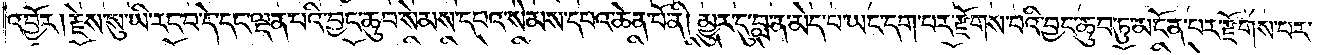འབྱོར། རྗེས་སུ་ཡི་རང་བ་དེ་དང་ལྡན་པའི་བྱང་ཆུབ་སེམས་དཔའ་སེམས་དཔའ་ཆེན་པོ་ནི། མྱུར་དུ་བླ་ན་མེད་པ་ཡང་དག་པར་རྫོགས་པའི་བྱང་ཆུབ་ཏུ་མངོན་པར་རྫོགས་པར་
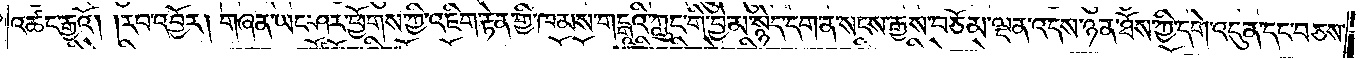འཚང་རྒྱའོ། །རབ་འབྱོར། གཞན་ཡང་ཤར་ཕྱོགས་ཀྱི་འཇིག་རྟེན་གྱི་ཁམས་གངྒའི་ཀླུང་གི་བྱེ་མ་སྙེད་དག་ན་སངས་རྒྱས་བཅོམ་ལྡན་འདས་ཉན་ཐོས་ཀྱི་དགེ་འདུན་དང་བཅས་
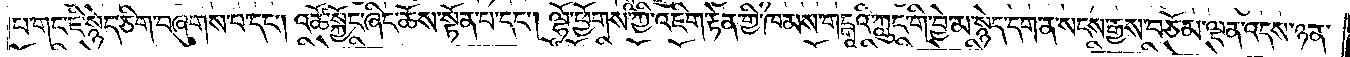པ་གང་ཇི་སྙེད་ཅིག་བཞུགས་པ་དང༌། འཚོ་སྐྱོང་ཞིང་ཆོས་སྟོན་པ་དང༌། ལྷོ་ཕྱོགས་ཀྱི་འཇིག་རྟེན་གྱི་ཁམས་གངྒའི་ཀླུང་གི་བྱེ་མ་སྙེད་དག་ན་སངས་རྒྱས་བཅོམ་ལྡན་འདས་ཉན་
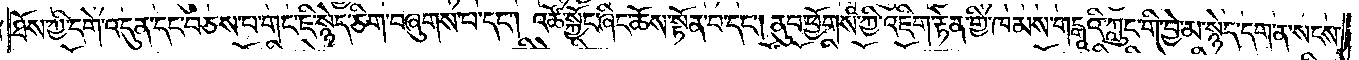ཐོས་ཀྱི་དགེ་འདུན་དང་བཅས་པ་གང་ཇི་སྙེད་ཅིག་བཞུགས་པ་དང༌། འཚོ་སྐྱོང་ཞིང་ཆོས་སྟོན་པ་དང༌། ནུབ་ཕྱོགས་ཀྱི་འཇིག་རྟེན་གྱི་ཁམས་གངྒའི་ཀླུང་གི་བྱེ་མ་སྙེད་དག་ན་སངས་
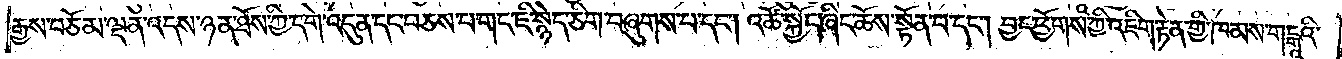རྒྱས་བཅོམ་ལྡན་འདས་ཉན་ཐོས་ཀྱི་དགེ་འདུན་དང་བཅས་པ་གང་ཇི་སྙེད་ཅིག་བཞུགས་པ་དང༌། འཚོ་སྐྱོང་ཞིང་ཆོས་སྟོན་པ་དང༌། བྱང་ཕྱོགས་ཀྱི་འཇིག་རྟེན་གྱི་ཁམས་གངྒའི་
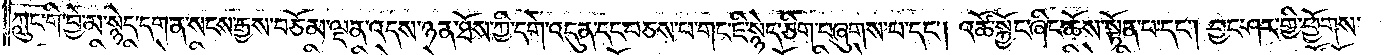ཀླུང་གི་བྱེ་མ་སྙེད་དག་ན་སངས་རྒྱས་བཅོམ་ལྡན་འདས་ཉན་ཐོས་ཀྱི་དགེ་འདུན་དང་བཅས་པ་གང་ཇི་སྙེད་ཅིག་བཞུགས་པ་དང༌། འཚོ་སྐྱོང་ཞིང་ཆོས་སྟོན་པ་དང༌། བྱང་ཤར་གྱི་ཕྱོགས་
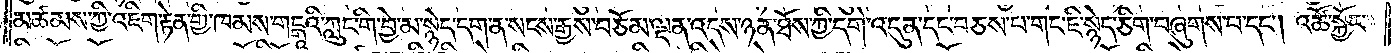མཚམས་ཀྱི་འཇིག་རྟེན་གྱི་ཁམས་གངྒའི་ཀླུང་གི་བྱེ་མ་སྙེད་དག་ན་སངས་རྒྱས་བཅོམ་ལྡན་འདས་ཉན་ཐོས་ཀྱི་དགེ་འདུན་དང་བཅས་པ་གང་ཇི་སྙེད་ཅིག་བཞུགས་པ་དང༌། འཚོ་སྐྱོང་
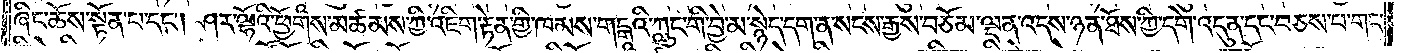ཞིང་ཆོས་སྟོན་པ་དང༌། ཤར་ལྷོའི་ཕྱོགས་མཚམས་ཀྱི་འཇིག་རྟེན་གྱི་ཁམས་གངྒའི་ཀླུང་གི་བྱེ་མ་སྙེད་དག་ན་སངས་རྒྱས་བཅོམ་ལྡན་འདས་ཉན་ཐོས་ཀྱི་དགེ་འདུན་དང་བཅས་པ་གང་
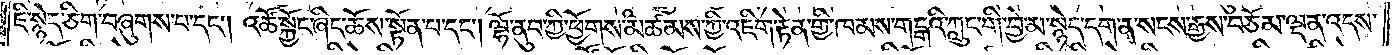ཇི་སྙེད་ཅིག་བཞུགས་པ་དང༌། འཚོ་སྐྱོང་ཞིང་ཆོས་སྟོན་པ་དང༌། ལྷོ་ནུབ་ཀྱི་ཕྱོགས་མཚམས་ཀྱི་འཇིག་རྟེན་གྱི་ཁམས་གངྒའི་ཀླུང་གི་བྱེ་མ་སྙེད་དག་ན་སངས་རྒྱས་བཅོམ་ལྡན་འདས་
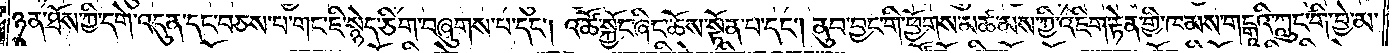ཉན་ཐོས་ཀྱི་དགེ་འདུན་དང་བཅས་པ་གང་ཇི་སྙེད་ཅིག་བཞུགས་པ་དང༌། འཚོ་སྐྱོང་ཞིང་ཆོས་སྟོན་པ་དང༌། ནུབ་བྱང་གི་ཕྱོགས་མཚམས་ཀྱི་འཇིག་རྟེན་གྱི་ཁམས་གངྒའི་ཀླུང་གི་བྱེ་མ་
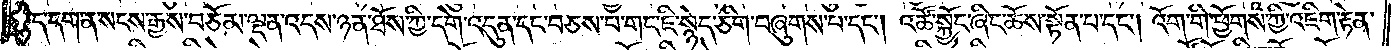སྙེད་དག་ན་སངས་རྒྱས་བཅོམ་ལྡན་འདས་ཉན་ཐོས་ཀྱི་དགེ་འདུན་དང་བཅས་པ་གོང་ཇི་སྙེད་ཅིག་བཞུགས་པ་དང༌། འཚོ་སྐྱོང་ཞིང་ཆོས་སྟོན་པ་དང༌། འོག་གི་ཕྱོགས་ཀྱི་འཇིག་རྟེན་
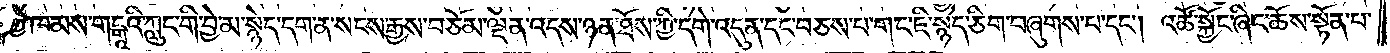གྱི་ཁམས་གངྒའི་ཀླུང་གི་བྱེ་མ་སྙེད་དག་ན་སངས་རྒྱས་བཅོམ་ལྡན་འདས་ཉན་ཐོས་ཀྱི་དགེ་འདུན་དང་བཅས་པ་གང་ཇི་སྙེད་ཅིག་བཞུགས་པ་དང༌། འཚོ་སྐྱོང་ཞིང་ཆོས་སྟོན་པ་
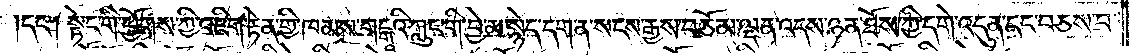དང༌། སྟེང་གི་ཕྱོགས་ཀྱི་འཇིག་རྟེན་གྱི་ཁམས་གངྒའི་ཀླུང་གི་བྱེ་མ་སྙེད་དག་ན་སངས་རྒྱས་བཅོམ་ལྡན་འདས་ཉན་ཐོས་ཀྱི་དགེ་འདུན་དང་བཅས་པ་
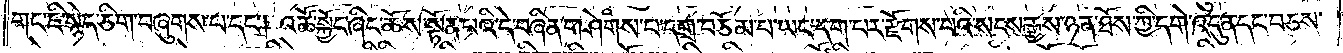གང་ཇི་སྙེད་ཅིག་བཞུགས་པ་དང༌། འཚོ་སྐྱོང་ཞིང་ཆོས་སྟོན་པའི་དེ་བཞིན་གཤེགས་པ་དགྲ་བཅོམ་པ་ཡང་དག་པར་རྫོགས་པའི་སངས་རྒྱས་ཉན་ཐོས་ཀྱི་དགེ་འདུན་དང་བཅས་
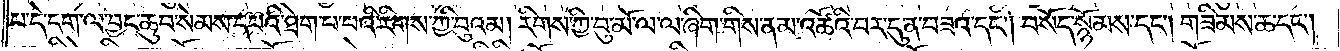པ་དེ་དག་ལ་བྱང་ཆུབ་སེམས་དཔའི་ཐེག་པ་པའི་རིགས་ཀྱི་བུ་འམ། རིགས་ཀྱི་བུ་མོ་ལ་ལ་ཞིག་གིས་ནམ་འཚོའི་བར་དུན་བཟའ་དང༌། བསོད་སྙོམས་དང༌། གཟིམས་ཆ་དང༌།
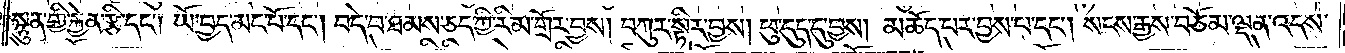སྙུན་གྱི་རྐྱེན་རྩི་དང༌། ཡོ་བྱད་མང་པོ་དང༌། བདེ་བ་ཐམས་ཅད་ཀྱི་རིམ་གྲོར་བྱས། བཀུར་སྟིར་བྱས། ཕུ་དུད་དུ་བྱས། མཆོད་པར་བྱས་པ་དང༌། སངས་རྒྱས་བཅོམ་ལྡན་འདས་
